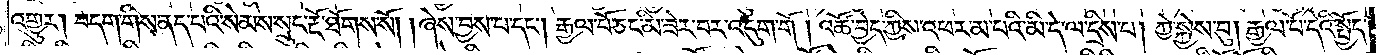འགྱུར། བདག་གིས་ནད་པའི་སེམས་སྲུང་རྔོ་ཐོགས་སོ། །ཞེས་བྱས་པ་དང༌། རྒྱལ་པོ་ཅང་མི་ཟེར་བར་འདུག་གོ །འཚོ་བྱེད་ཀྱིས་འཕར་མ་པའི་མི་དེ་ལ་དྲིས་པ། ཀྱེ་སྐྱེས་བུ། རྒྱལ་པོ་དེའི་སྤྱོད་
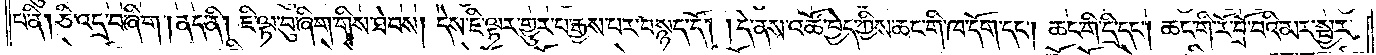པ་ནི། ཅི་འདྲ་བ་ཞིག །ནད་ནི། ཇི་ལྟ་བུ་ཞིག་གིས་ཐེབས། དེས་ཇི་ལྟར་གྱུར་པ་རྒྱས་པར་བསྙད་དོ། །དེ་ནས་འཚོ་བྱེད་ཀྱིས་ཆང་གི་ཁ་དོག་དང༌། ཆང་གི་དྲི་དང༌། ཆང་གི་རོ་བྲོ་བའི་མར་སྦྱར་
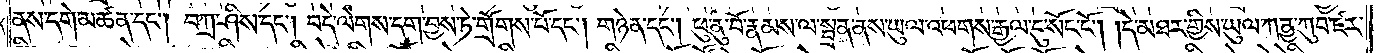ནས་དགེ་མཚན་དང༌། བཀྲ་ཤིས་དང༌། བདེ་ལེགས་དག་བྱས་ཏེ་གྲོགས་པོ་དང༌། གཉེན་དང༌། ཕུ་ནུ་བོ་རྣམས་ལ་སྦྲན་ནས་ཡུལ་འཕགས་རྒྱལ་དུ་སོང་ངོ༌། །དེ་མཐར་གྱིས་ཡུལ་ཀནྱ་ཀུབ་ཛར་
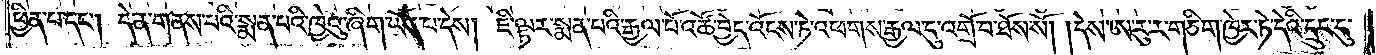ཕྱིན་པ་དང༌། དེ་ན་གནས་པའི་སྨན་པའི་ཁྱེའུ་ཞིག་ཡོད་པ་དེས། ཇི་ལྟར་སྨན་པའི་རྒྱལ་པོ་འཚོ་བྱེད་འོངས་ཏེ་འཕགས་རྒྱལ་དུ་འགྲོ་བ་ཐོས་སོ། །དེས་ཨ་རུ་ར་གཅིག་ཁྱེར་ཏེ་དེའི་དྲུང་དུ་
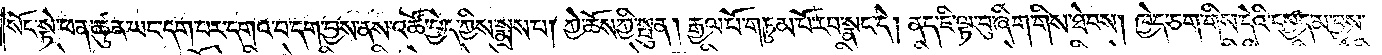སོང་སྟེ་ཕན་ཚུན་ཡང་དག་པར་དགའ་བ་དག་བྱས་ནས་འཚོ་བྱེད་ཀྱིས་སྨྲས་པ། ཀྱེ་ཆོས་ཀྱི་སྤུན། རྒྱལ་པོ་གཏུམ་པོ་རབ་སྣང་དེ། ནད་ཇི་ལྟ་བུ་ཞིག་གིས་ཐེབས། ཁྱེད་ཅག་གིས་དེའི་དཔྱད་མ་བྱས་
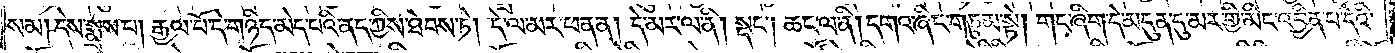སམ། དེས་སྨྲས་པ། རྒྱལ་པོ་དེ་གཉིད་མེད་པའི་ནད་ཀྱིས་ཐེབས་ཏེ། དེ་ལ་མར་ཕན་ན། དེ་མར་ལ་ནི། སྡང༌། ཆང་ལ་ནི། དགའ་ཞིང་གཏུམ་སྟེ། གང་ཞིག་དེ་མདུན་དུ་མར་གྱི་མིང་འབྱིན་པ་དེའི་
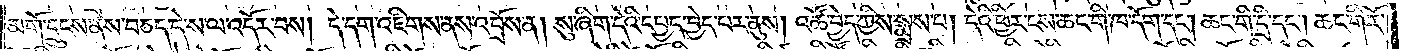མགོ་དྲུངས་ནས་བཅད་དེ་ས་ལ་འདོར་བས། དེ་དག་འཇིགས་ནས་འབྲོས་ན། སུ་ཞིག་དེའི་དཔྱད་བྱེད་པར་ནུས། འཚོ་བྱེད་ཀྱིས་སྨྲས་པ། དེའི་ཕྱིར་ངས་ཆང་གི་ཁ་དོག་དང༌། ཆང་གི་དྲི་དང༌། ཆང་གི་རོ་
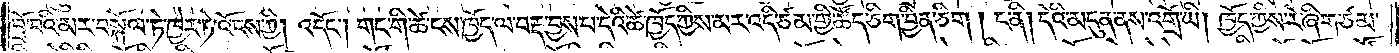བྲོ་བའི་མར་བསྐོལ་ཏེ་ཁྱེར་ཏེ་འོངས་ཀྱི། འདོང༌། གང་གི་ཚེ་ངས་ཁྱོད་ལ་བརྡ་བྱས་པ་དེའི་ཚེ་ཁྱོད་ཀྱིས་མར་འདི་ཙམ་གྱི་ཚོད་ཅིག་བྱིན་ཅིག །ང་ནི། དེའི་མདུན་ནས་འགྲོ་ཡི། ཁྱོད་ཀྱིས་རེ་ཞིག་ཙམ་
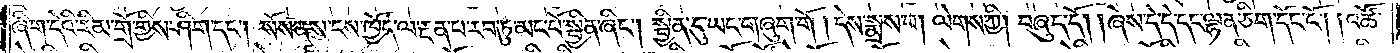ཞིག་དེའི་རིམ་གྲོ་གྱིས་ཤིག་དང༌། སོས་ནས་ངས་ཁྱོད་ལ་རྔན་པ་རབ་ཏུ་མང་པོ་སྦྱིན་ཞིང༌། སྦྱིན་དུ་ཡང་གཞུག་གོ །དེས་སྨྲས་པ། ལེགས་ཀྱི། བཞུད་དོ། །ཞེས་དེ་དེ་དང་ལྷན་ཅིག་དོང་ངོ༌། །འཚོ་
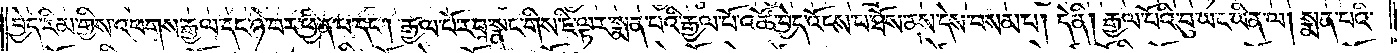བྱེད་རིམ་གྱིས་འཕགས་རྒྱལ་དང་ཉེ་བར་ཕྱིན་པ་དང༌། རྒྱལ་པོ་རབ་སྣང་གིས་ཇི་ལྟར་སྨན་པའི་རྒྱལ་པོ་འཚོ་བྱེད་འོངས་པ་ཐོས་ནས་དེས་བསམ་པ། དེ་ནི། རྒྱལ་པོའི་བུ་ཡང་ཡིན་ལ། སྨན་པའི་
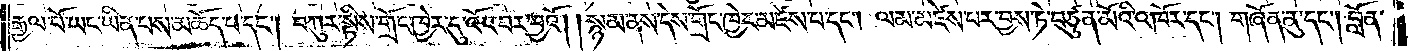རྒྱལ་པོ་ཡང་ཡིན་པས་མཆོད་པ་དང༌། བཀུར་སྟིས་གྲོང་ཁྱེར་དུ་འོང་བར་བྱའོ། །སྙམ་ནས་དེས་གྲོང་ཁྱེར་མཛེས་པ་དང༌། ལམ་མཛེས་པར་བྱས་ཏེ་བཙུན་མོའི་འཁོར་དང༌། གཞོན་ནུ་དང༌། བློན་
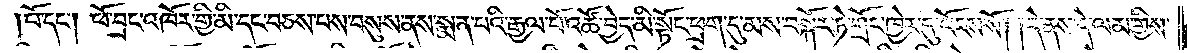པོ་དང༌། ཕོ་བྲང་འཁོར་གྱི་མི་དང་བཅས་པས་བསུས་ནས་སྨན་པའི་རྒྱལ་པོ་འཚོ་བྱེད་མི་སྟོང་ཕྲག་དུ་མས་བསྐོར་ཏེ་གྲོང་ཁྱེར་དུ་འོངས་སོ། །དེ་ནས་དེ་ལམ་གྱིས་
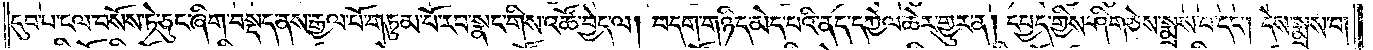དུབ་པ་ངལ་བསོས་ཏེ་ཅུང་ཞིག་བསྡད་ནས་རྒྱལ་པོ་གཏུམ་པོ་རབ་སྣང་གིས་འཚོ་བྱེད་ལ། བདག་གཉིད་མེད་པའི་ནད་དཀྱེལ་ཆེར་གྱུར་ན། དཔྱད་གྱིས་ཤིག་ཅེས་སྨྲས་པ་དང༌། དེས་སྨྲས་པ།
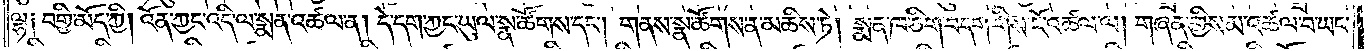ལྷ༑ བགྱི་མོད་ཀྱི། འོན་ཀྱང་འདི་ལ་སྨན་འཚལ་ན། དེ་དག་ཀྱང་ཡུལ་སྣ་ཚོགས་དང༌། གནས་སྣ་ཚོགས་ན་མཆིས་ཏེ། སྨན་ཁ་ཅིག་བདག་གིས་ངོ་འཚལ་ལ། གཞན་གྱིས་མ་འཚལ་བ་ཡང་
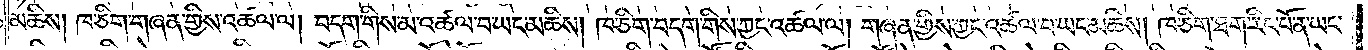མཆིས། ཁ་ཅིག་གཞན་གྱིས་འཚལ་ལ། བདག་གིས་མ་འཚལ་བ་ཡང་མཆིས། ཁ་ཅིག་བདག་གིས་ཀྱང་འཚལ་ལ། གཞན་གྱིས་ཀྱང་འཚལ་བ་ཡང་མཆིས། ཁ་ཅིག་ཐག་རིང་པོ་ན་ཡང་
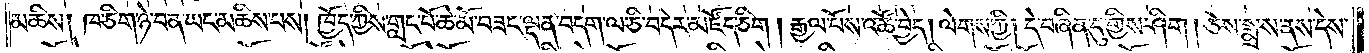མཆིས། ཁ་ཅིག་ཉེ་བ་ན་ཡང་མཆིས་པས། ཁྱོད་ཀྱིས་གླང་པོ་ཆེ་མོ་བཟང་ལྡན་བདག་ལ་ཅི་བདེར་མཛོད་ཅིག །རྒྱལ་པོས་འཚོ་བྱེད། ལེགས་ཀྱི། དེ་བཞིན་དུ་གྱིས་ཤིག །ཅེས་སྨྲས་ནས་དེས་
